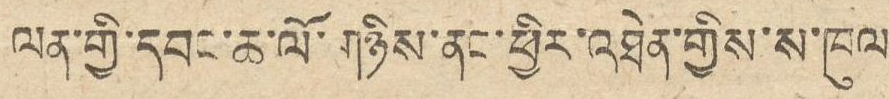ལན་གྱི་དབང་ཆ་ལོ་གཉིས་ནང་ཕྱིར་འཐེན་གྱིས་ས་ཁུལ
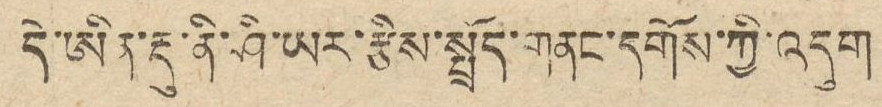དེ་ཨིན་རྡུ་ནི་ཤི་ཡར་རྩིས་སྤྲོད་གནང་དགོས་ཀྱི་འདུག
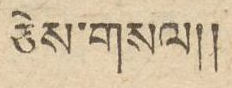ཅེས་གསལ།།
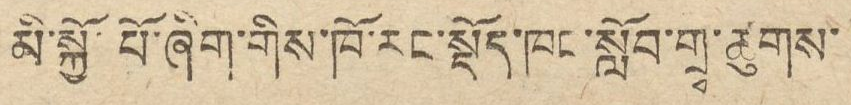མི་སྐྱོ་པོ་ཞིག་གིས་ཁོ་རང་སྡོད་ཁང་སློབ་གྲྭ་ཚུགས་
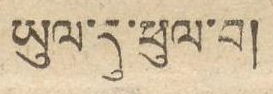ཡུལ་དུ་ཕུལ་བ།
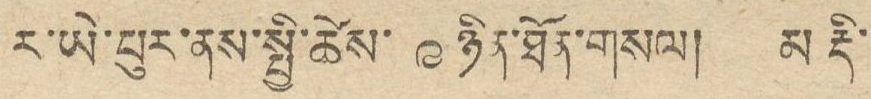ར་ཡེ་པུར་ནས་སྤྱི་ཚེས་ ༩ ཉིན་ཐོན་གསལ། མ རྡི་
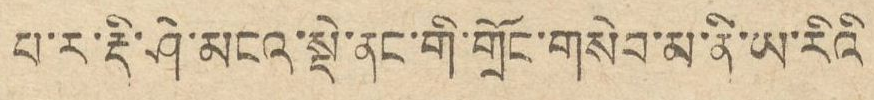པ་ར་རྡི་ཤེ་མངའ་སྡེ་ནང་གི་གྲོང་གསེབ་མ་ནི་ཡ་རིའི་
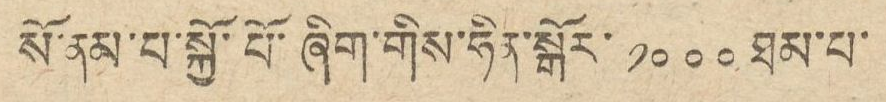སོ་ནམ་པ་སྐྱོ་པོ་ཞིག་གིས་ཧིན་སྒོར་ ༡༠༠༠ ཐམ་པ་
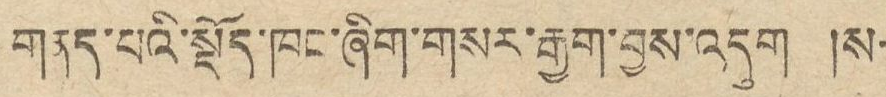གནད་པའི་སྡོད་ཁང་ཞིག་གསར་རྒྱག་བྱས་འདུག །ས་
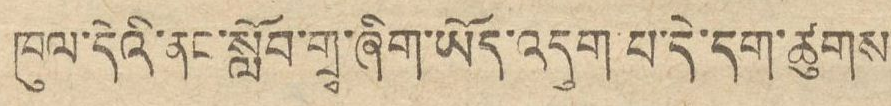ཁུལ་དེའི་ནང་སློབ་གྲྭ་ཞིག་ཡོད་འདུག་པ་དེ་དག་ཚུགས
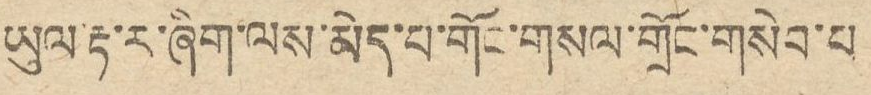ཡུལ་རྟ་ར་ཞིག་ལས་མེད་པ་གོང་གསལ་གྲོང་གསེབ་པ
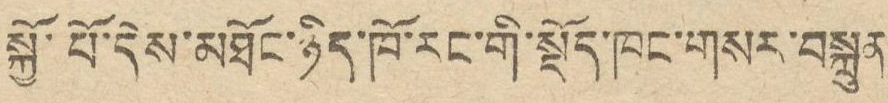སྐྱོ་པོ་དེས་མཐོང་ཉིད་ཁོ་རང་གི་སྡོད་ཁང་གསར་བསྐྲུན
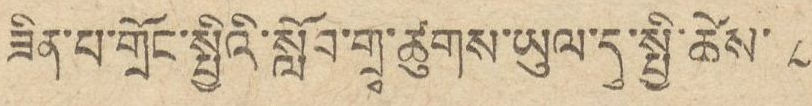ཟིན་པ་གྲོང་སྤྱིའི་སློབ་གྲྭ་ཚུགས་ཡུལ་དུ་སྤྱི་ཚེས་ ༨
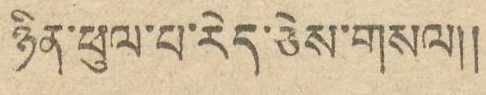ཉིན་ཕུལ་པ་རེད་ཅེས་གསལ།།
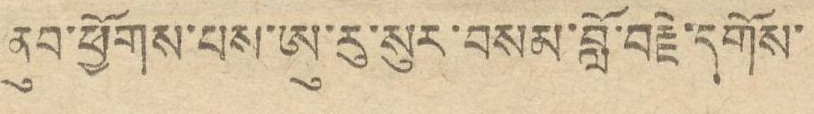ནུབ་ཕྱོགས་པས་ཨུ་རུ་སུར་བསམ་བློ་བརྗེ་དགོས་
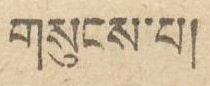གསུངས་པ།
